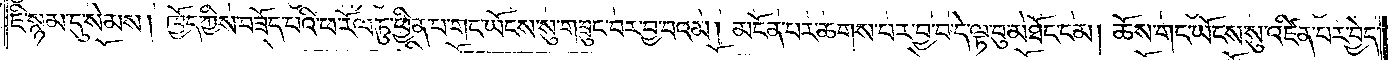ཇི་སྙམ་དུ་སེམས། ཁྱོད་ཀྱིས་བཟོད་པའི་ཕ་རོལ་ཏུ་ཕྱིན་པ་གང་ཡོངས་སུ་གཟུང་བར་བྱ་བའམ། མངོན་པར་ཆགས་པར་བྱ་བ་དེ་ལྟ་བུ་མཐོང་ངམ། ཆོས་གང་ཡོངས་སུ་འཛིན་པར་བྱེད་
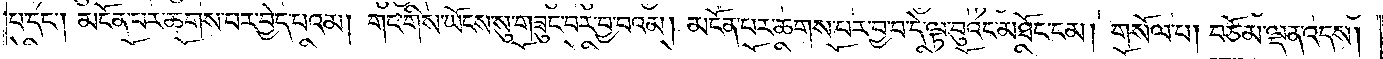པ་དང༌། མངོན་པར་ཆགས་པར་བྱེད་པའམ། གང་གིས་ཡོངས་སུ་གཟུང་བར་བྱ་བའམ། མངོན་པར་ཆགས་པར་བྱ་བ་དེ་ལྟ་བུའང་མཐོང་ངམ། གསོལ་པ། བཅོམ་ལྡན་འདས།
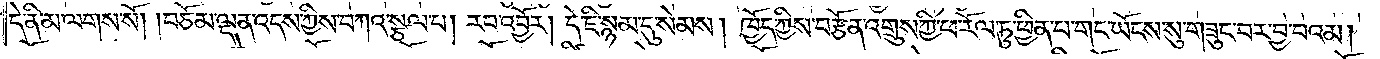དེ་ནི་མ་ལགས་སོ། །བཅོམ་ལྡན་འདས་ཀྱིས་བཀའ་སྩལ་པ། རབ་འབྱོར། དེ་ཇི་སྙམ་དུ་སེམས། ཁྱོད་ཀྱིས་བརྩོན་འགྲུས་ཀྱི་ཕ་རོལ་ཏུ་ཕྱིན་པ་གང་ཡོངས་སུ་གཟུང་བར་བྱ་བའམ།
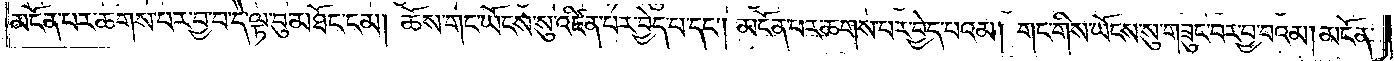མངོན་པར་ཆགས་པར་བྱ་བ་དེ་ལྟ་བུ་མཐོང་ངམ། ཆོས་གང་ཡོངས་སུ་འཛིན་པར་བྱེད་པ་དང༌། མངོན་པར་ཆགས་པར་བྱེད་པའམ། གང་གིས་ཡོངས་སུ་གཟུང་བར་བྱ་བའམ། མངོན་
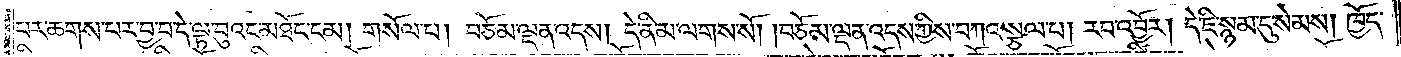པར་ཆགས་པར་བྱ་བ་དེ་ལྟ་བུའང་མཐོང་ངམ། གསོལ་པ། བཅོམ་ལྡན་འདས། དེ་ནི་མ་ལགས་སོ། །བཅོམ་ལྡན་འདས་ཀྱིས་བཀའ་སྩལ་པ། རབ་འབྱོར། དེ་ཇི་སྙམ་དུ་སེམས། ཁྱོད་
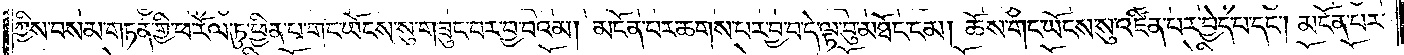ཀྱིས་བསམ་གཏན་གྱི་ཕ་རོལ་ཏུ་ཕྱིན་པ་གང་ཡོངས་སུ་གཟུང་བར་བྱ་བའམ། མངོན་པར་ཆགས་པར་བྱ་བ་དེ་ལྟ་བུ་མཐོང་ངམ། ཆོས་གང་ཡོངས་སུ་འཛིན་པར་བྱེད་པ་དང༌། མངོན་པར་
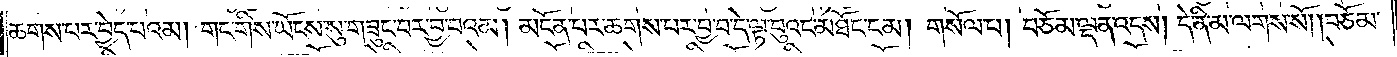ཆགས་པར་བྱེད་པའམ། གང་གིས་ཡོངས་སུ་གཟུང་བར་བྱ་བའམ། མངོན་པར་ཆགས་པར་བྱ་བ་དེ་ལྟ་བུའང་མཐོང་ངམ། གསོལ་པ། བཅོམ་ལྡན་འདས། དེ་ནི་མ་ལགས་སོ། །བཅོམ་
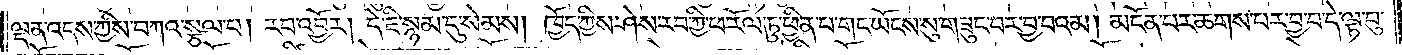ལྡན་འདས་ཀྱིས་བཀའ་སྩལ་པ། རབ་འབྱོར། དེ་ཇི་སྙམ་དུ་སེམས། ཁྱོད་ཀྱིས་ཤེས་རབ་ཀྱི་ཕ་རོལ་ཏུ་ཕྱིན་པ་གང་ཡོངས་སུ་གཟུང་བར་བྱ་བའམ། མངོན་པར་ཆགས་པར་བྱ་བ་དེ་ལྟ་བུ་
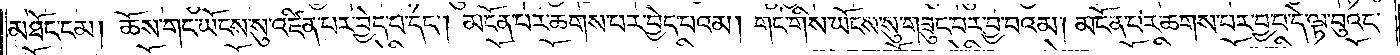མཐོང་ངམ། ཆོས་གང་ཡོངས་སུ་འཛིན་པར་བྱེད་པ་དང༌། མངོན་པར་ཆགས་པར་བྱེད་པའམ། གང་གིས་ཡོངས་སུ་གཟུང་བར་བྱ་བའམ། མངོན་པར་ཆགས་པར་བྱ་བ་དེ་ལྟ་བུའང་
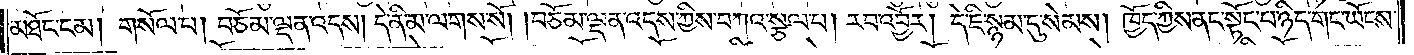མཐོང་ངམ། གསོལ་པ། བཅོམ་ལྡན་འདས། དེ་ནི་མ་ལགས་སོ། །བཅོམ་ལྡན་འདས་ཀྱིས་བཀའ་སྩལ་པ། རབ་འབྱོར། དེ་ཇི་སྙམ་དུ་སེམས། ཁྱོད་ཀྱིས་ནང་སྟོང་པ་ཉིད་གང་ཡོངས་
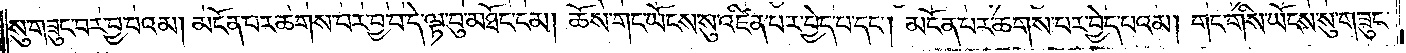སུ་གཟུང་བར་བྱ་བའམ། མངོན་པར་ཆགས་པར་བྱ་བ་དེ་ལྟ་བུ་མཐོང་ངམ། ཆོས་གང་ཡོངས་སུ་འཛིན་པར་བྱེད་པ་དང༌། མངོན་པར་ཆགས་པར་བྱེད་པའམ། གང་གིས་ཡོངས་སུ་གཟུང་
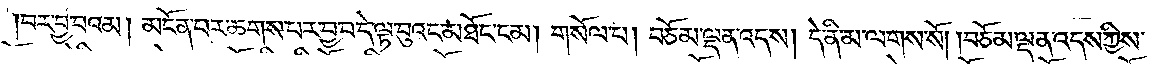བར་བྱ་བའམ། མངོན་པར་ཆགས་པར་བྱ་བ་དེ་ལྟ་བུའང་མཐོང་ངམ། གསོལ་པ། བཅོམ་ལྡན་འདས། དེ་ནི་མ་ལགས་སོ། །བཅོམ་ལྡན་འདས་ཀྱིས་
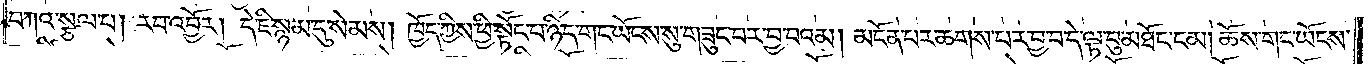བཀའ་སྩལ་པ། རབ་འབྱོར། དེ་ཇི་སྙམ་དུ་སེམས། ཁྱོད་ཀྱིས་ཕྱི་སྟོང་པ་ཉིད་གང་ཡོངས་སུ་གཟུང་བར་བྱ་བའམ། མངོན་པར་ཆགས་པར་བྱ་བ་དེ་ལྟ་བུ་མཐོང་ངམ། ཆོས་གང་ཡོངས་
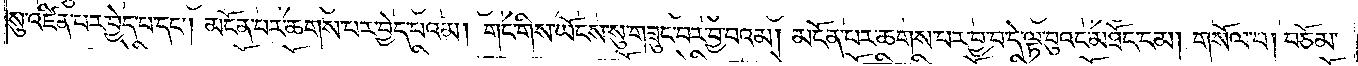སུ་འཛིན་པར་བྱེད་པ་དང༌། མངོན་པར་ཆགས་པར་བྱེད་པའམ། གང་གིས་ཡོངས་སུ་གཟུང་བར་བྱ་བའམ། མངོན་པར་ཆགས་པར་བྱ་བ་དེ་ལྟ་བུའང་མཐོང་ངམ། གསོལ་པ། བཅོམ་
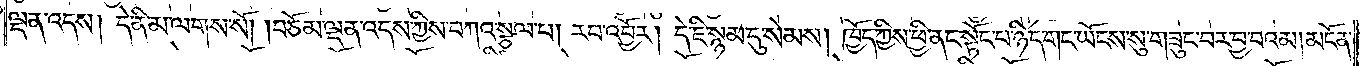ལྡན་འདས། དེ་ནི་མ་ལགས་སོ། །བཅོམ་ལྡན་འདས་ཀྱིས་བཀའ་སྩལ་པ། རབ་འབྱོར། དེ་ཇི་སྙམ་དུ་སེམས། ཁྱོད་ཀྱིས་ཕྱི་ནང་སྟོང་པ་ཉིད་གང་ཡོངས་སུ་གཟུང་བར་བྱ་བའམ། མངོན་
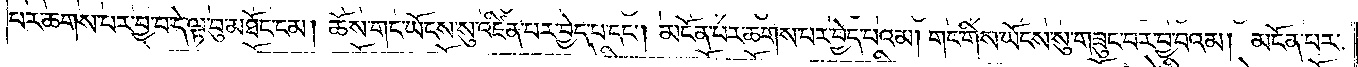པར་ཆགས་པར་བྱ་བ་དེ་ལྟ་བུ་མཐོང་ངམ། ཆོས་གང་ཡོངས་སུ་འཛིན་པར་བྱེད་པ་དང༌། མངོན་པར་ཆགས་པར་བྱེད་པའམ། གང་གིས་ཡོངས་སུ་གཟུང་བར་བྱ་བའམ། མངོན་པར་
